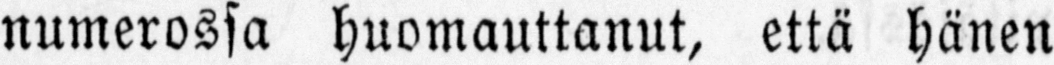numerossa huomauttanut, että hänen
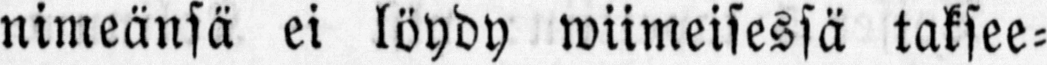nimeänsä ei löydy wiimeisessä taksee-
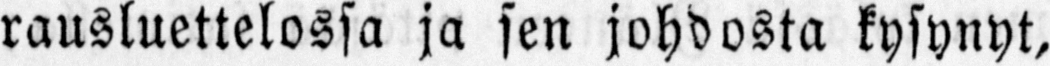rausluettelossa ja sen johdosta kysynyt,
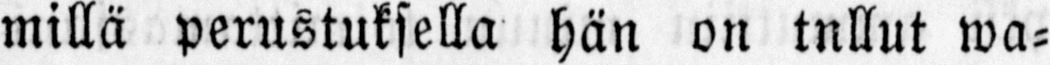millä perustuksella hän on tnllut wa-
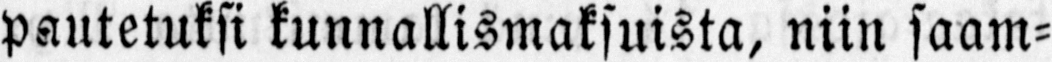pautetuksi kunnallismaksuista, niin saam-
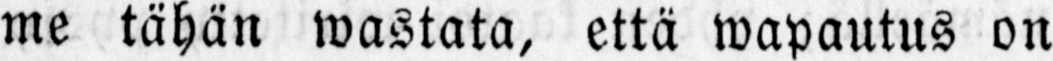me tähän wastata, että wapautus on
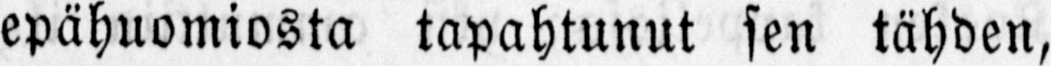epähuomiosta tapahtunut sen tähden,
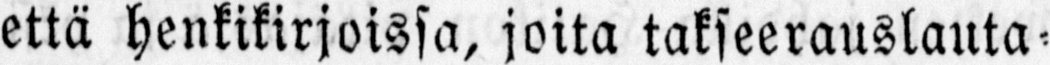että henkikirjoissa, joita takseerauslauta-
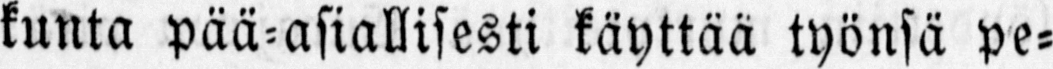kunta pää-asiallisesti käyttää työnsä pe-
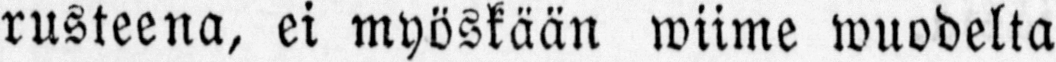rusteena, ei myöskään wiime wuodelta
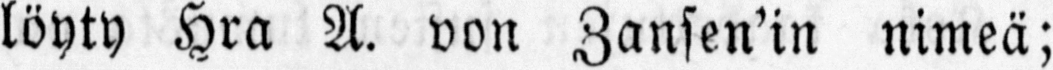löyty Hra A. von Zansen'in nimeä;
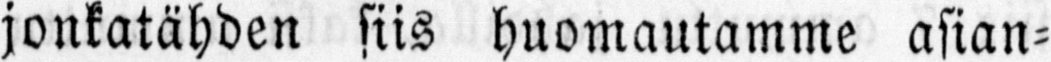jonkatähden siis huomautamme asian-
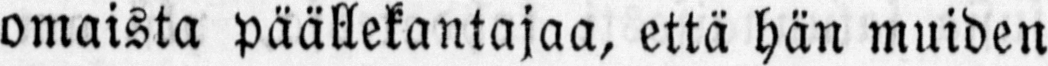omaista päällekantajaa, että hän muiden
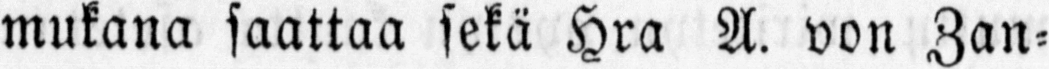mukana saattaa sekä Hra A. von Zan-
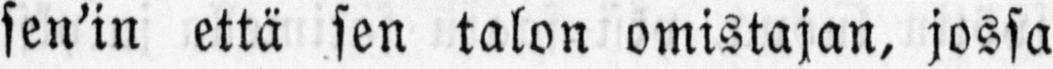sen'in että sen talon omistajan, jossa
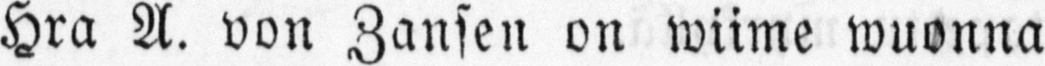Hra A. von Zansen on wiime wuonna
